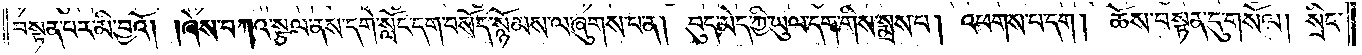བསྟན་པར་མི་བྱའོ། །ཞེས་བཀའ་སྩལ་ནས་དགེ་སློང་དག་བསོད་སྙོམས་ལ་ཞུགས་པ་ན། བུད་མེད་ཀྱི་ཡུལ་དག་གིས་སྨྲས་པ། འཕགས་པ་དག །ཆོས་བསྟན་དུ་གསོལ། སྲིང་
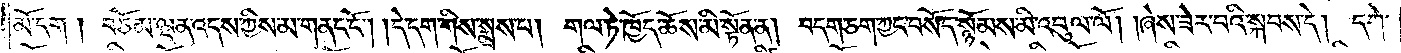མོ་དག །བཅོམ་ལྡན་འདས་ཀྱིས་མ་གནང་ངོ༌། །དེ་དག་གིས་སྨྲས་པ། གལ་ཏེ་ཁྱོད་ཆོས་མི་སྟོན་ན། བདག་ཅག་ཀྱང་བསོད་སྙོམས་མི་འབུལ་ལོ། །ཞེས་ཟེར་བའི་སྐབས་དེ། དགེ་
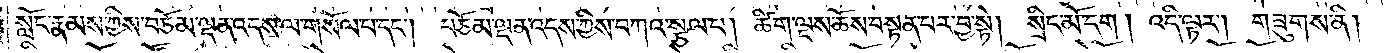སློང་རྣམས་ཀྱིས་བཅོམ་ལྡན་འདས་ལ་གསོལ་བ་དང༌། བཅོམ་ལྡན་འདས་ཀྱིས་བཀའ་སྩལ་པ། ཚིག་ལྔས་ཆོས་བསྟན་པར་བྱ་སྟེ། སྲིང་མོ་དག །འདི་ལྟར། གཟུགས་ནི།
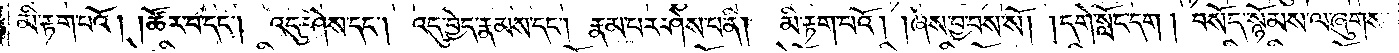མི་རྟག་པའོ། །ཚོར་བ་དང༌། འདུ་ཤེས་པ་དང༌། འདུ་བྱེད་རྣམས་དང༌། རྣམ་པར་ཤེས་པ་ནི། མི་རྟག་པའོ། །ཞེས་བྱ་བས་སོ། །དགེ་སློང་དག །བསོད་སྙོམས་ལ་ཞུགས་
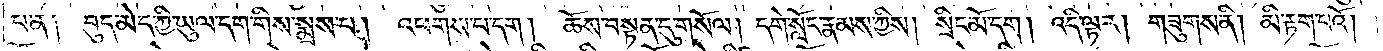པ་ན༑ བུད་མེད་ཀྱི་ཡུལ་དག་གིས་སྨྲས་པ། འཕགས་པ་དག །ཆོས་བསྟན་དུ་གསོལ། དགེ་སློང་རྣམས་ཀྱིས། སྲིང་མོ་དག །འདི་ལྟར། གཟུགས་ནི། མི་རྟག་པའོ། །
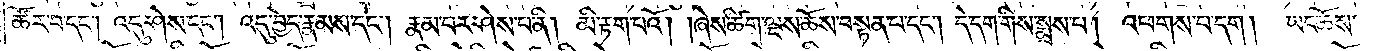ཚོར་བ་དང༌། འདུ་ཤེས་དང༌། འདུ་བྱེད་རྣམས་དང༌། རྣམ་པར་ཤེས་པ་ནི། མི་རྟག་པའོ། །ཞེས་ཚིག་ལྔས་ཆོས་བསྟན་པ་དང༌། དེ་དག་གིས་སྨྲས་པ། འཕགས་པ་དག །ཡང་ཆོས་
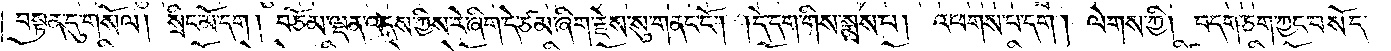བསྟན་དུ་གསོལ། སྲིང་མོ་དག །བཅོམ་ལྡན་འདས་ཀྱིས་རེ་ཞིག་དེ་ཙམ་ཞིག་རྗེས་སུ་གནང་ངོ༌། །དེ་དག་གིས་སྨྲས་པ། འཕགས་པ་དག །ལེགས་ཀྱི། བདག་ཅག་ཀྱང་བསོད་
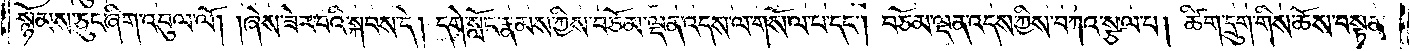སྙོམས་ཅུང་ཞིག་འབུལ་ལོ། །ཞེས་ཟེར་བའི་སྐབས་དེ། དགེ་སློང་རྣམས་ཀྱིས་བཅོམ་ལྡན་འདས་ལ་གསོལ་པ་དང༌། བཅོམ་ལྡན་འདས་ཀྱིས་བཀའ་སྩལ་པ། ཚིག་དྲུག་གིས་ཆོས་བསྟན་
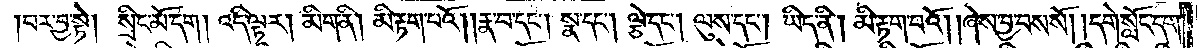པར་བྱ་སྟེ། སྲིང་མོ་དག། འདི་ལྟར། མིག་ནི། མི་རྟག་པའོ། །རྣ་བ་དང༌། སྣ་དང༌། ལྕེ་དང༌། ལུས་དང༌། ཡིད་ནི། མི་རྟག་པའོ། །ཞེས་བྱ་བས་སོ། །དགེ་སློང་དག་
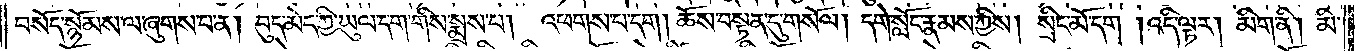བསོད་སྙོམས་ལ་ཞུགས་པ་ན། བུད་མེད་ཀྱི་ཡུལ་དག་གིས་སྨྲས་པ། འཕགས་པ་དག །ཆོས་བསྟན་དུ་གསོལ། དགེ་སློང་རྣམས་ཀྱིས། སྲིང་མོ་དང༌། འདི་ལྟར། མིག་ནི། མི་
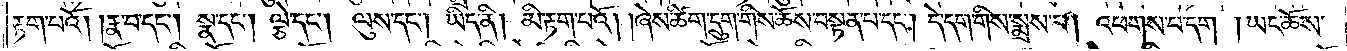རྟག་པའོ། །རྣ་བ་དང༌། སྣ་དང༌། ལྕེ་དང༌། ལུས་དང༌། ཡིད་ནི། མི་རྟག་པའོ། །ཞེས་ཚིག་དྲུག་གིས་ཆོས་བསྟན་པ་དང༌། དེ་དག་གིས་སྨྲས་པ། འཕགས་པ་དག །ཡང་ཆོས་
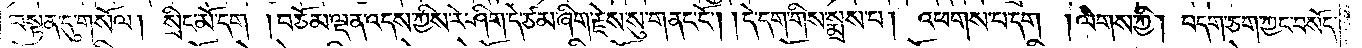བསྟན་དུ་གསོལ། སྲིང་མོ་དག །བཅོམ་ལྡན་འདས་ཀྱིས་རེ་ཤིག་དེ་ཙམ་ཞིག་རྗེས་སུ་གནང་ངོ༌། །དེ་དག་གིས་སྨྲས་པ། འཕགས་པ་དག །ལེགས་ཀྱི། བདག་ཅག་ཀྱང་བསོད་
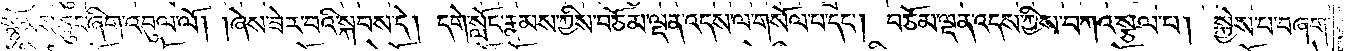སྙོམས་ཅུང་ཞིག་འབུལ་ལོ། །ཞེས་ཟེར་བའི་སྐབས་དེ། དགེ་སློང་རྣམས་ཀྱིས་བཅོམ་ལྡན་འདས་ལ་གསོལ་བ་དང༌། བཅོམ་ལྡན་འདས་ཀྱིས་བཀའ་སྩལ་པ། སྐྱེས་པ་བཞག་
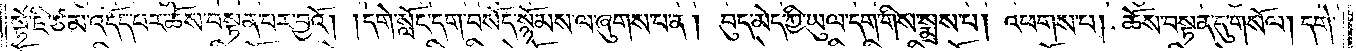སྟེ་ཇི་ཙམ་འདོད་པར་ཆོས་བསྟན་པར་བྱའོ། །དགེ་སློང་དག་བསོད་སྙོམས་ལ་ཞུགས་པ་ན། བུད་མེད་ཀྱི་ཡུལ་དག་གིས་སྨྲས་པ། འཕགས་པ། ཆོས་བསྟན་དུ་གསོལ། དགེ་
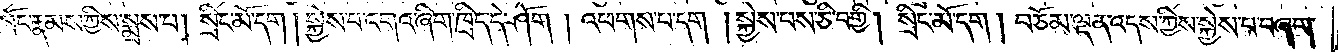སློང་རྣམས་ཀྱིས་སྨྲས་པ། སྲིང་མོ་དག །སྐྱེས་པ་འགའ་ཞིག་ཁྲིད་དེ་ཤོག །འཕགས་པ་དག། སྐྱེས་པས་ཅི་བགྱི། སྲིང་མོ་དག། བཅོམ་ལྡན་འདས་ཀྱིས་སྐྱེས་པ་བཞག་
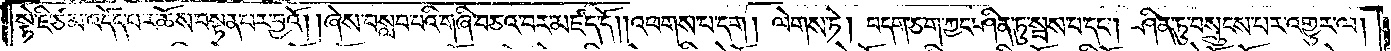སྟེ་ཇི་ཙམ་འདོད་པར་ཆོས་བསྟན་པར་བྱའོ། །ཞེས་བསླབ་པའི་གཞི་བཅའ་བར་མཛད་དོ། །འཕགས་པ་དང༌། ལེགས་ཏེ། བདག་ཅག་ཀྱང་ཤིན་ཏུ་སྦས་པ་དང༌། ཤིན་ཏུ་བསྲུངས་པར་འགྱུར་ལ།
